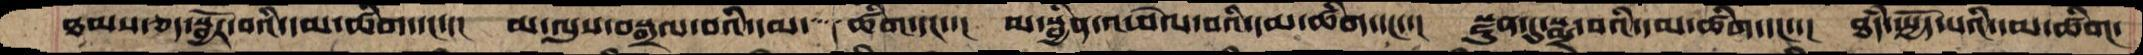ཐམས་ཅད་སྦྱོར་བའི་དམ་ཚིག་དང་་།  མ་ལུས་བསྒྲལ་བའི་དམ་་་  ་ཚིག་དང་་།  མ་སྦྱིན་འཕེལ་བའི་དམ་ཚིག་དང་་།  སྫུན་དུ་སྨྲ་བའི་དམ་ཚིག་དང་་།  ཐཾད་སྤྱོད་པའི་དམ་ཚིག་
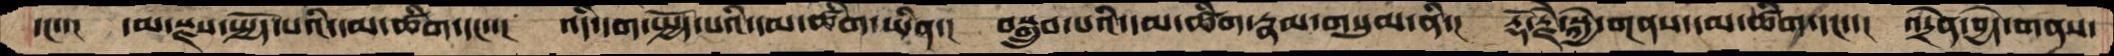དང་་།  དམ་སྫས་སྤྱོད་པའི་དམ་ཚིག་དང་་།  འདི་དག་སྤྱོད་པའི་དམ་ཚིག་ཡིན་།  བསྒྲུབ་པའི་དམ་ཚིག་རྣམ་གསུམ་ནི་།  རྡོ་རྗེ་སྐྱེ་གནས་དམ་ཚིག་དང་་།  འདྲེན་བྱེད་གནས་
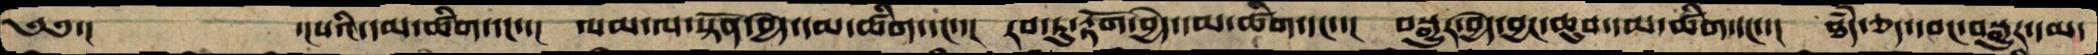༄༅་།   ་།པའི་དམ་ཚིག་དང་་།  ལམ་ལ་སྟོན་བྱེད་དམ་ཚིག་དང་་།  རབ་ཏུ་རྟོག་བྱེད་དམ་ཚིག་དང་་།  བསྒྱུར་བྱེད་བྱང་ཆུབ་དམ་ཚིག་དང་་།  ཐཾད་དབང་བསྒྱུར་དམ་
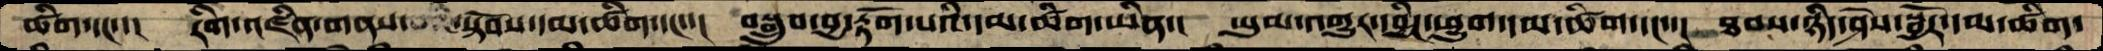ཚིག་དང་་།  རིག་འཛིན་གནས་ སྟོབས་དམ་ཚིག་དང་་།  བསྒྲུབ་བྱ་རྟོག་པའི་དམ་ཚིག་ཡིན་།  ཡུམ་འགྱུར་དབྱིང་ཕྱུག་དམ་ཚིག་དང་་།  ཐབས་ཉིད་ཤེས་སྦྱོར་དམ་ཚིག་
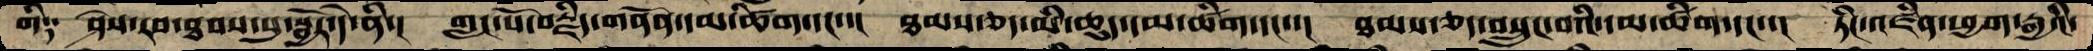གི༑  ཤེས་རབ་ཐབས་སུ་སྦྱོར་དེ་ནི་།  གླང་པོ་བརྗིད་གནོན་དམ་ཚིག་དང་་།  ཐམས་ཅད་མི་ཆུད་དམ་ཚིག་དང་་།  ཐམས་ཅད་བསྲུང་བའི་དམ་ཚིག་དང་་།  ཏིང་འཛིན་ཕྱག་རྒྱའི་
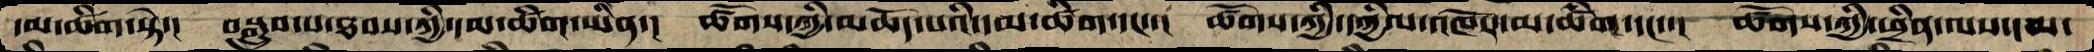དམ་ཚིག་སྟེ་།  བསྒྲུབ་པ་ཐབས་ཀྱི་དམ་ཚིག་ཡིན་།  ཚོགས་ཀྱི་མཆོད་པའི་དམ་ཚིག་དང་་།  ཚོགས་ཀྱི་དཀྱིལ་འཁོར་དམ་ཚིག་དང་་།  ཚོགས་ཀྱི་ཕྲིན་ལས་དམ་
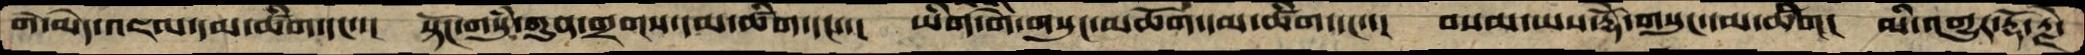གེ་མེད་འཇལ་དམ་ཚིག་དང་་།  སྟོང་གསུཾ་ཀུན་གྲགས་དམ་ཚིག་དང་་།  ཡིག་གེ་གསུང་མཆོག་དམ་ཚིག་དང་་།  བསམ་ཡས་རྡོེ་གསུང་དམ་ཚིག།  མི་འགྱུར་རྡོ་རྗེ་
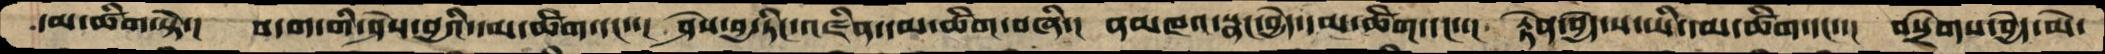དམ་ཚིག་སྟེ་།  བདག་གི་ཤེས་བྱའི་དམ་ཚིག་དང་་།  ཤེས་བྱ་ཏིང་འཛིན་དམ་ཚིག་བཞི་།   ནམཁའ་སྣང་བྱེད་དམ་ཚིག་དང་་།  རྟེན་བྱེད་ས་ཡི་དམ་ཚིག་དང་་།  བསྲེགས་བྱེད་མེ་
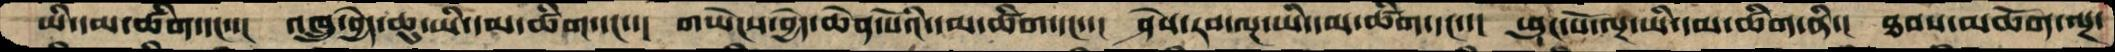ཡི་དམ་ཚིག་དང་་།  འཁྲུ་བྱེད་ཆུ་ཡི་དམ་ཚིག་དང་་།  གཡེངས་བྱེད་ཆེན་པོའི་དམ་ཚིག་དང་་།  ཤེས་རབ་ལྔ་ཡི་དམ་ཚིག་དང་་།  ཕུང་པོ་ལྔ་ཡི་དམ་ཚིག་ནི་།  ཐབས་མཆོག་ལྔ་
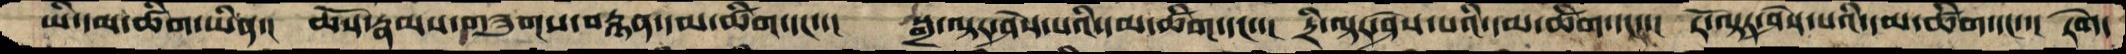ཡི་དམ་ཚིག་ཡིན་།   ཆོས་རྣམས་གཟུགས་བརྙན་དམ་ཚིག་དང་་།  སྒྲ་ལྟར་ཤེས་པའི་དམ་ཚིག་དང་་།  དྲི་ལྟར་ཤེས་པའི་དམ་ཚིག་དང་་།  རོ་ལྟར་ཤེས་པའི་དམ་ཚིག་དང་་།  རེག་
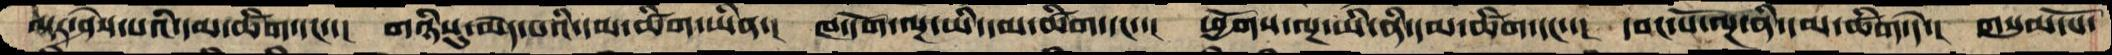ལྟར་ཤེས་པའི་དམ་ཚིག་དང་་།  གཉིསུ་མེད་པའི་དམ་ཚིག་ཡིན་།  ཁ་དོག་ལྔ་ཡི་དམ་ཚིག་དང་་།  ཕྱོགས་ལྔ་ཡི་ནི་དམ་ཚིག་དང་་།  དབང་པོ་ལྔ་ནི་དམ་ཚིག་དེ་།  གསུམ་པོ་
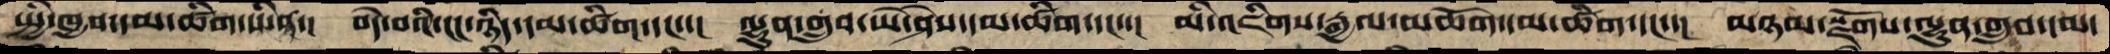སྤྱི་ཁྱབ་དམ་ཚིག་ཡིན་།  བདེ་བའི་ངང་ཉིད་དམ་ཚིག་དང་་།   ལྷུན་གྲུབ་ཡེ་ཤེས་དམ་ཚིག་དང་་།  མི་འཇིགས་རྒྱལ་མཆོག་དམ་ཚིག་དདང་་།  མཉམ་སྫོགས་ལྷུན་གྲུབ་དམ་
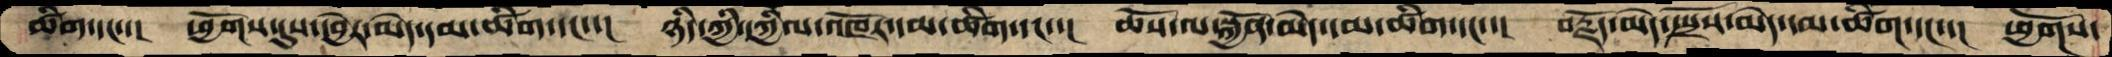ཚིག་དང་་།  ཕྱོགས་དུས་དབྱེར་མེད་དམ་ཚིག་དང་་།  ཉིད་ཀྱི་དཀྱིལ་འཁོར་དམ་ཚིག་དང་་།  ཆོས་ལ་སྐྱོན་མེད་དམ་ཚིག་དང་་།  བརྗོད་མེད་སྤྲོས་མེད་དམ་ཚིག་དང་་།  ཕྱོགས་
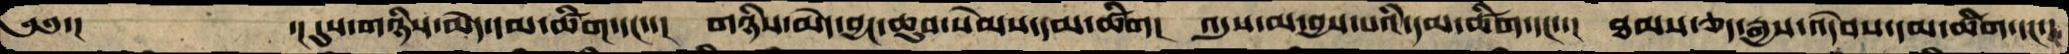༄༅་།         ་།དུས་གཉིས་མེད་དམ་ཚིག་དང་་།  གཉིས་མེད་བྱང་ཆུབ་སེམས་དམ་ཚིག།  འདུས་མ་བྱས་པའི་དམ་ཚིག་དང་་།  ཐམས་ཅད་རྒྱས་འདེབས་དམ་ཚིག་དང་།
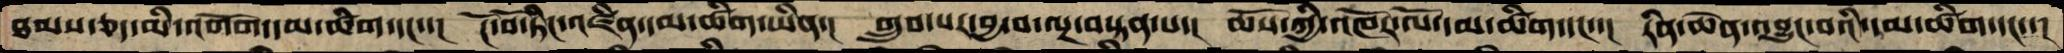ཐམས་ཅད་མི་འགོག་དམ་ཚིག་དང་་།  ངོ་བོ་ཏིང་འཛིན་དམ་ཚིག་དང་་།  གྲུབ་པར་བྱ་བ་ལྔ་བསྟན་པ་།  ཆོས་ཀྱི་འཁོར་ལོ་དམ་ཚིག་དང་་།  རིན་ཆེན་འབྱུང་བའི་དམ་ཚིག་དང་་།
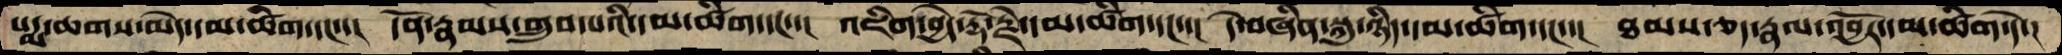པདྨ་ཆགས་མེད་དམ་ཚིག་དང་་།  དོན་རྣམས་གྲུབ་པའི་དམ་ཚིག་དང་་།  འཇིག་བྱེད་རྡོ་རྗེ་དམ་ཚིག་དང་་།  དེ་བཞིན་སྐུ་ཉིད་དམ་ཚིག་དང་་།  ཐམས་ཅད་རྣལ་འབྱོར་དམ་ཚིག་དེ་།
